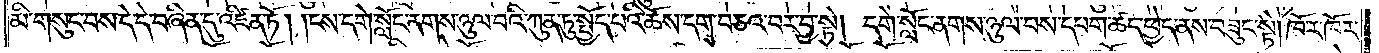མི་གསུང་བས་དེ་དེ་བཞིན་དུ་འཛིན་ཏོ། །ངས་དགེ་སློང་ནགས་ཉུལ་བའི་ཀུན་ཏུ་སྤྱོད་པའི་ཆོས་དག་བཅའ་བར་བྱ་སྟེ། དགེ་སློང་ནགས་ཉུལ་བས་དཔག་ཚད་ཕྱེད་ནས་བཟུང་སྟེ། ཁོར་ཁོར་
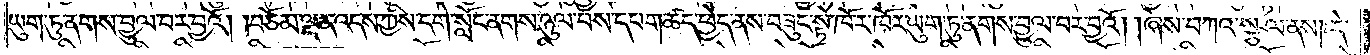ཡུག་ཏུ་ནགས་བྱུལ་བར་བྱའོ། །བཅོམ་ལྡན་འདས་ཀྱིས་དགེ་སློང་ནགས་ཉུལ་བས་དཔག་ཚད་ཕྱེད་ནས་བཟུང་སྟེ་ཁོར་ཁོར་ཡུག་ཏུ་ནགས་བྱུལ་བར་བྱའོ། །ཞེས་བཀའ་སྩལ་ནས། དེ་
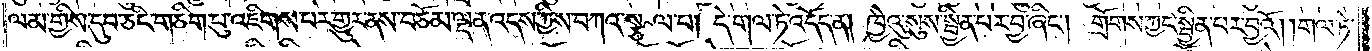ལམ་གྱིས་དུབ་ཅིང་གཅིག་པུ་འཇིགས་པར་གྱུར་ནས་བཅོམ་ལྡན་འདས་ཀྱིས་བཀའ་སྩལ་པ། དེ་གལ་ཏེ་འདོད་ན། ཁྱེའུ་སུས་སྦྱིན་པར་བྱ་ཞིང༌། གྲོགས་ཀྱང་སྦྱིན་པར་བྱའོ། །གལ་ཏེ་
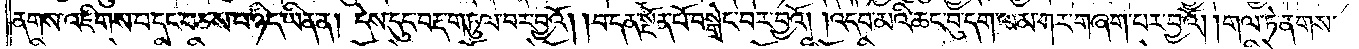ནགས་འཇིགས་པ་དང་བཅས་པ་ཉིད་ཡིན་ན། དེས་དུང་བརྡ་གཏུལ་བར་བྱའོ། །བ་དན་སྔོན་པོ་བསྒྲེང་བར་བྱའོ། །འདབ་མའི་ཆང་བུ་དག་ལམ་གར་གཞག་པར་བྱའོ། །གལ་ཏེ་ནགས་
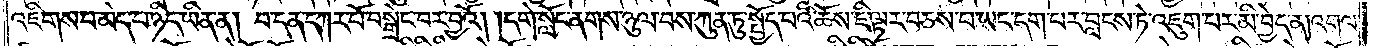འཇིགས་པ་མེད་པ་ཉིད་ཡིན་ན། བ་དན་དཀར་པོ་བསྒྲེང་བར་བྱའོ། །དགེ་སློང་ནགས་ཉུལ་བས་ཀུན་ཏུ་སྤྱོད་པའི་ཆོས་ཇི་ལྟར་བཅས་པ་ཡང་དག་པར་བླངས་ཏེ་འཇུག་པར་མི་བྱེད་ན། འགལ་
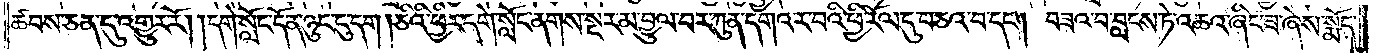ཚབས་ཅན་དུ་འགྱུར་རོ། །དགེ་སློང་དོན་ཉུང་ངུ་དག །ཅིའི་ཕྱིར་དགེ་སློང་ནགས་སྔར་མ་བྱུལ་བར་ཀུན་དགའ་ར་བའི་ཕྱི་རོལ་དུ་བཅའ་བ་དང༌། བཟའ་བ་བླངས་ཏེ་འཆའ་ཞིང་ཟ་ཞེས་སྨོད་
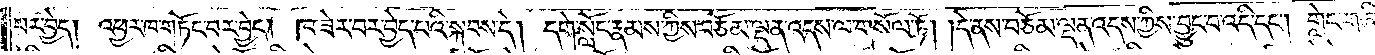པར་བྱེད། འཕྱར་ཁ་གཏོང་བར་བྱེད། ཁ་ཟེར་བར་བྱེད་པའི་སྐབས་དེ། དགེ་སློང་རྣམས་ཀྱིས་བཅོམ་ལྡན་འདས་ལ་གསོལ་ཏོ། །དེ་ནས་བཅོམ་ལྡན་འདས་ཀྱིས་བྱུང་བ་འདི་དང༌། གླེང་གཞི་
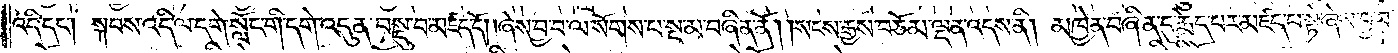འདི་དང༌། སྐབས་འདི་ལ་དགེ་སློང་གེ་དགེ་འདུན་བསྡུ་བ་མཛད་དོ། །ཞེས་བྱ་བ་ལ་སོགས་པ་སྔ་མ་བཞིན་ནོ། །སངས་རྒྱས་བཅོམ་ལྡན་འདས་ནི། མཁྱེན་བཞིན་དུ་རྨེད་པར་མཛད་པ་སྟེ་ཞེས་བྱ་བ་
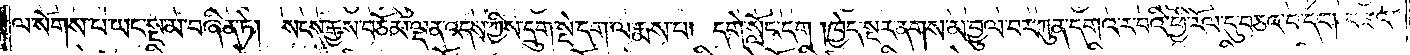ལ་སོགས་པ་ཡང་སྔ་མ་བཞིན་ཏེ། སངས་རྒྱས་བཅོམ་ལྡན་འདས་ཀྱིས་དྲུག་སྡེ་དག་ལ་རྨས་པ། དགེ་སློང་དག །ཁྱེད་སྔར་ནགས་མ་བྱུལ་བར་ཀུན་དགའ་ར་བའི་ཕྱི་རོལ་དུ་བཅའ་བ་དང༌། བཟའ་
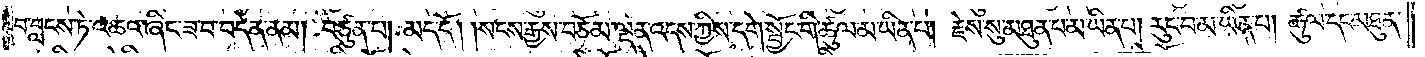བ་བླངས་ཏེ་འཆའ་ཞིང་ཟ་བ་བདེན་ནམ། བཙུན་པ། མད་དོ། །སངས་རྒྱས་བཅོམ་ལྡན་འདས་ཀྱིས་དགེ་སྦྱོང་གི་ཚུལ་མ་ཡིན་པ། རྗེས་སུ་མཐུན་པ་མ་ཡིན་པ། རུང་བ་མ་ཡིན་པ། ཚུལ་དང་མཐུན་
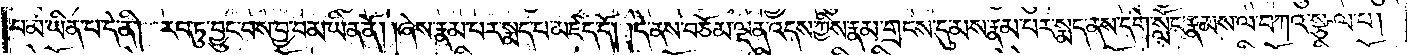པ་མ་ཡིན་པ་དེ་ནི། རབ་ཏུ་བྱུང་བས་བྱ་བ་མ་ཡིན་ནོ། །ཞེས་རྣམ་པར་སྨད་པ་མཛད་དོ། །དེ་ནས་བཅོམ་ལྡན་འདས་ཀྱིས་རྣམ་གྲངས་དུ་མས་རྣམ་པར་སྨད་ནས་དགེ་སློང་རྣམས་ལ་བཀའ་སྩལ་པ།
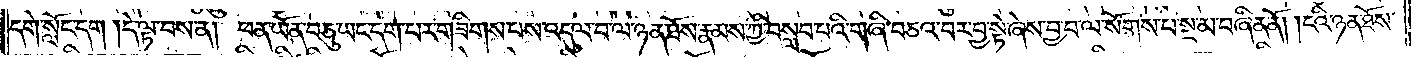དགེ་སློང་དག །དེ་ལྟ་བས་ན། ཕན་ཡོན་བཅུ་ཡང་དག་པར་གཟིགས་པས་འདུལ་བ་ལ་ཉན་ཐོས་རྣམས་ཀྱི་བསླབ་པའི་གཞི་བཅའ་བར་བྱ་སྟེ་ཞེས་བྱ་བ་ལ་སོགས་པ་སྔ་མ་བཞིན་ནོ། །ངའི་ཉན་ཐོས་
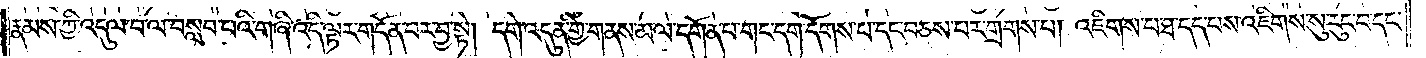རྣམས་ཀྱི་འདུལ་བ་ལ་བསླབ་པའི་གཞི་འདི་ལྟར་གདོན་པར་བྱ་སྟེ། དགེ་འདུན་གྱི་གནས་མལ་དགོན་པ་གང་དག་དོགས་པ་དང་བཅས་པར་གྲགས་པ། འཇིགས་པ་ཐ་དད་པས་འཇིགས་སུ་རུང་བ་དང་
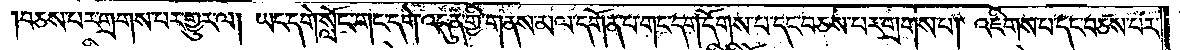བཅས་པར་གྲགས་པར་གྱུར་ལ། ཡང་དགེ་སློང་གང་དགེ་འདུན་གྱི་གནས་མལ་དགོན་པ་གང་དག་དོགས་པ་དང་བཅས་པར་གྲགས་པ། འཇིགས་པ་དང་བཅས་པར་
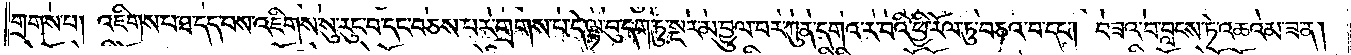གྲགས་པ། འཇིགས་པ་ཐ་དད་པས་འཇིགས་སུ་རུང་བ་དང་བཅས་པར་གྲགས་པ་དེ་ལྟ་བུ་དག་ཏུ་སྔར་མ་བྱུལ་བར་ཀུན་དགའ་ར་བའི་ཕྱི་རོལ་ཏུ་བཅའ་བ་དང༌། བཟའ་བ་བླངས་ཏེ་འཆའམ་ཟ་ན།
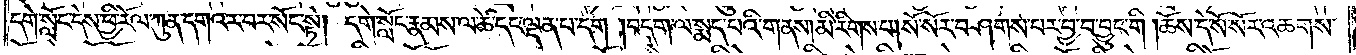དགེ་སློང་དེས་ཕྱི་རོལ་ཀུན་དགའ་ར་བར་སོང་སྟེ། དགེ་སློང་རྣམས་ལ་ཚེ་དང་ལྡན་པ་དག །བདག་ལ་སྨད་པའི་གནས། མི་རིགས་པ། སོ་སོར་བཤགས་པར་བྱ་བ་བྱུང་གི །ཆོས་དེ་སོ་སོར་འཆགས་
